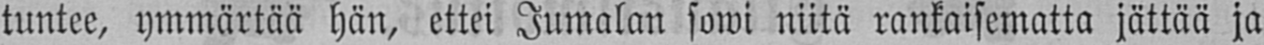tuntee, ymmärtää hän, ettei Jumalan sowi niitä rankaisematta jättää ja
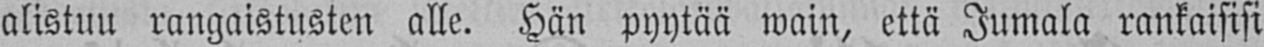alistuu rangaistusten alle. Hän pyytää wain, että Jumala rankaisisi
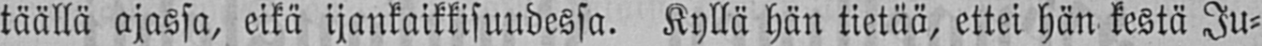täällä ajassa, eikä ijankaikkisuudessa. Kyllä hän tietää, ettei hän kestä Ju-
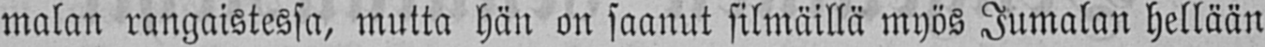malan rangaistessa, mutta hän on saanut silmäillä myös Jumalan hellään
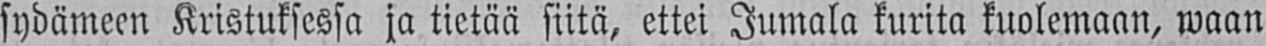sydämeen Kristuksessa ja tietää siitä, ettei Jumala kurita kuolemaan, waan
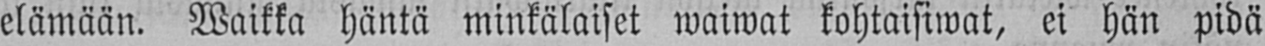elämään. Waikka häntä minkälaiset waiwat kohtaisiwat, ei hän pidä
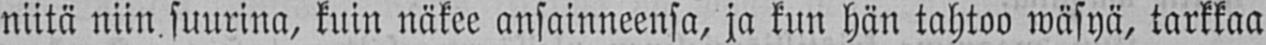niitä niin suurina, kuin näkee ansainneensa, ja kun hän tahtoo wäsyä, tarkkaa
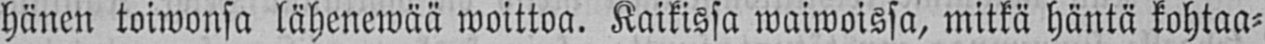hänen toiwonsa lähenewää woittoa. Kaikissa waiwoissa, mitkä häntä kohtaa-
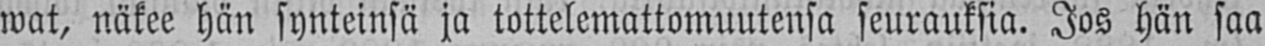wat, näkee hän synteinsä ja tottelemattomuutensa seurauksia. Jos hän saa
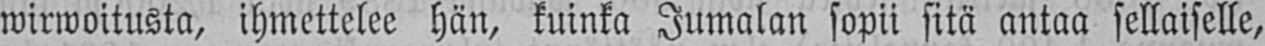wirwoitusta, ihmettelee hän, kuinka Jumalan sopii sitä antaa sellaiselle,
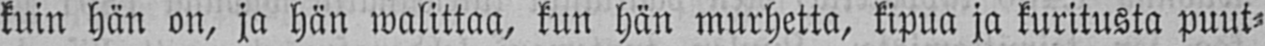kuin hän on, ja hän walittaa, kun hän murhetta, kipua ja kuritusta puut-
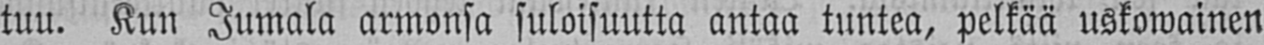tuu. Kun Jumala armonsa suloisuutta antaa tuntea, pelkää uskowainen
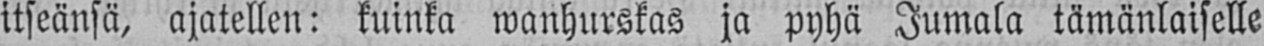itseänsä, ajatellen: kuinka wanhurskas ja pyhä Jumala tämänlaiselle
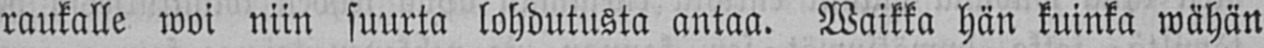raukalle woi niin suurta lohdutusta antaa. Waikka hän kuinka wähän
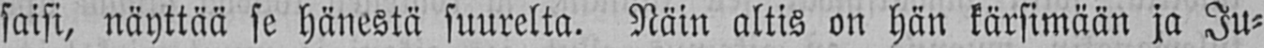saisi, näyttää se hänestä suurelta. Näin altis on hän kärsimään ja Ju-
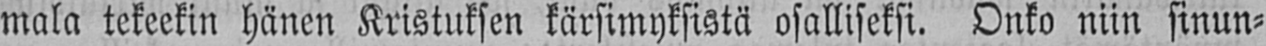mala tekeekin hänen Kristuksen kärsimyksistä osalliseksi. Onko niin sinun-
